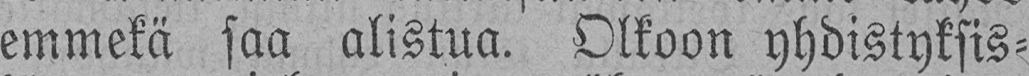emmekä saa alistua. Olkoon yhdistyksis-
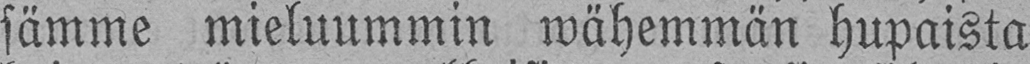sämme mieluummin wähemmän hupaista
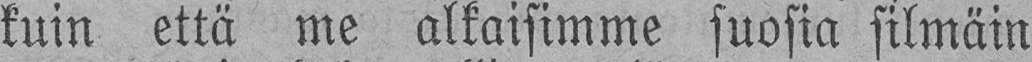kuin että me alkaisimme suosia silmäin
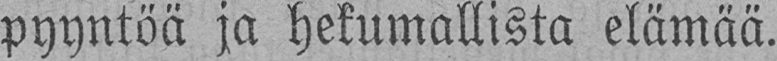pyyntöä ja hekumallista elämää.
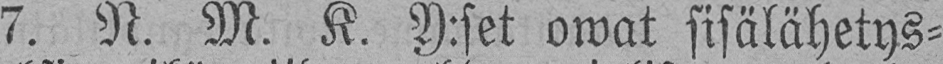7. N. M. K. Y:set owat sisälähetys-
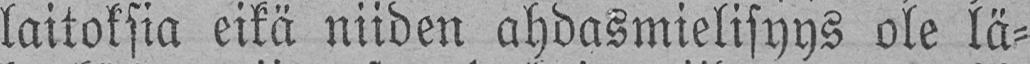laitoksia eikä niiden ahdasmielisyys ole lä-
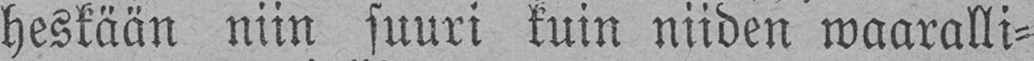heskään niin suuri kuin niiden waaralli-
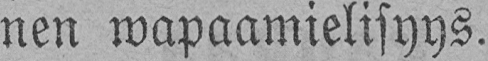nen wapaamielisyys.
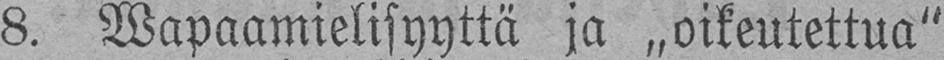8. Wapaamielisyyttä ja „oikeutettua"
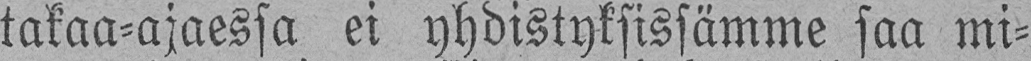takaa-ajaessa ei yhdistyksissämme saa mi-
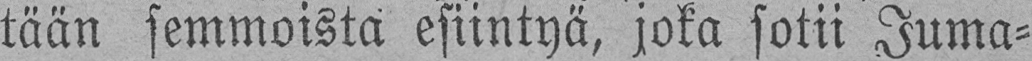tään semmoista esiintyä, joka sotii Juma-
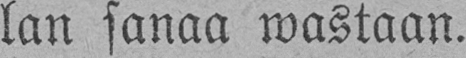lan sanaa wastaan.
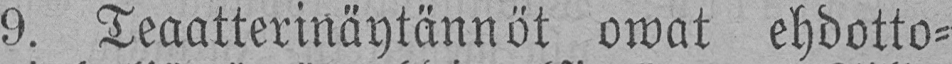9. Teaatterinäytännöt owat ehdotto-
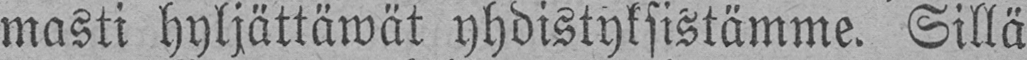masti hyljättäwät yhdistyksistämme. Sillä
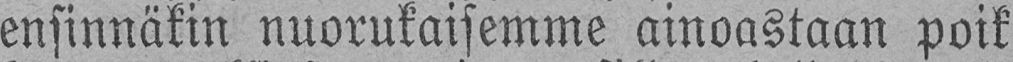ensinnäkin nuorukaisemme ainoastaan poik
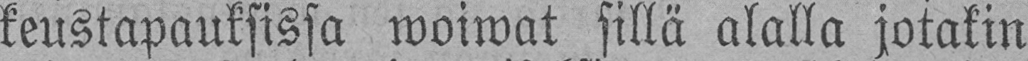keustapauksissa woiwat sillä alalla jotakin
